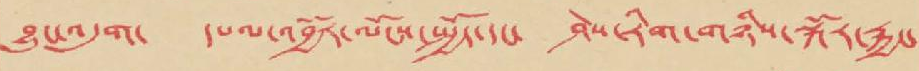བྱུང་འདུག་ དཔལ་འབྱོར་ལོངས་སྤྱོད་དང་ ཤེས་རིག་གཉིས་སྐོར་རྐྱང་
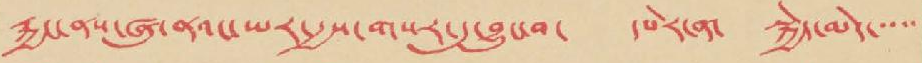རྐྱང་ནས་ཞུ་ནའང་ཡར་རྒྱས་གསར་དུ་བྱུང་བ་ དཔེར་ན་ སྐྱེད་མེ་་་་་
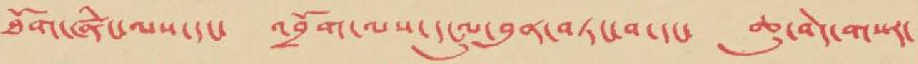ཐོག་ཞིང་ལས་དང་ འབྲོག་ལས་དངུལ་བུན་བཏང་བ་དང་ ཆུ་བེད་གསར་
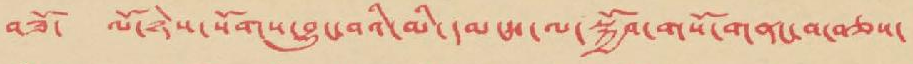བཟོ་ ལོ་ཉེས་སོགས་བྱུང་བའི་མི་དམངས་ལ་སྐྱོབ་གསོ་གནང་བ་བཅས་
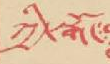ཀྱི་སྒོ་
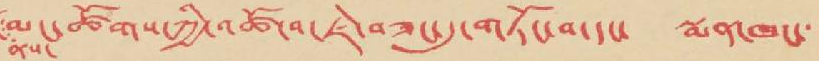མང་ཚོགས་ཀྱི་འཚོ་བ་ཇེ་བཟང་དུ་གཏོང་བ་དང་ སྨན་ཁང་
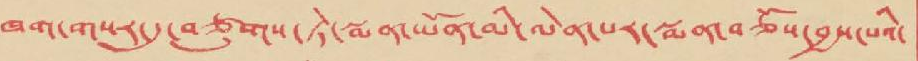ཁག་གསར་དུ་བཙུགས་ཏེ་སྨན་ཡོན་མི་ལེན་པར་སྨན་བཅོས་བྱས་པའི་
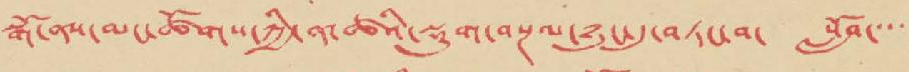སྒོ་ནས་མང་ཚོགས་ཀྱི་ན་ཚའི་སྡུག་བསྔལ་ཉུང་དུ་བཏང་བ་ སློབ་་་་
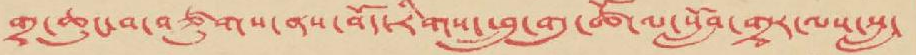གྲྭ་ཆུང་བ་བཙུགས་ནས་བོད་རིགས་ཕྲུ་གུ་ཚོ་ལ་སློབ་གྲྭར་ལས་སླ་
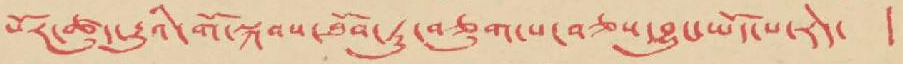པོར་ཚུད་རྒྱུའི་གོ་སྐབས་ཐོབ་ཏུ་བཅུག་པ་བཅས་བྱུང་ཡོད་པ་རེད་ །
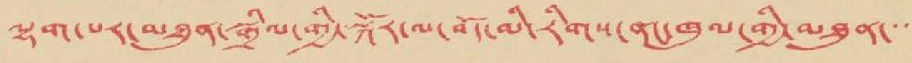ལྷག་པར་མཐུན་སྒྲིལ་གྱི་སྐོར་ལ་བོད་མི་རིགས་ནང་ཁུལ་གྱི་མཐུན་་་
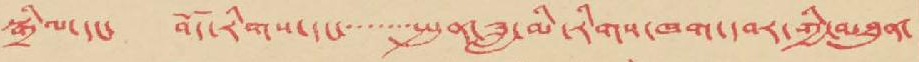སྒྲིལ་དང་ བོད་རིགས་དང་་་་་་་་སྤུན་ཟླ་མི་རིགས་ཁག་དབར་གྱི་མཐུན་
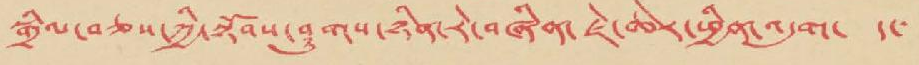སྒྲིལ་བཅས་ཀྱི་སྟོབས་ཤུགས་ཉིན་རེ་བཞིན་ཇེ་ཆེར་ཕྱིན་འདུག་ ད་
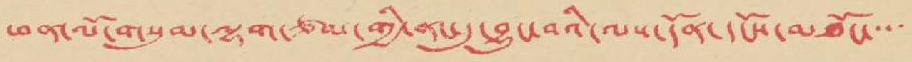ཕན་ལོ་གསུམ་ལྷག་ཙམ་གྱི་ནང་དུ་བྱུང་བའི་ལས་དོན་དངོས་མཐོང་་་་
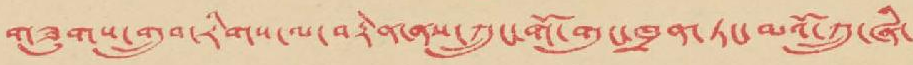གཟུགས་གྲུབ་རིགས་ལ་བརྟེན་ནས་ཀྲུང་གོ་གུང་ཁྲན་ཏང་མའོ་ཀྲུ་ཞི་
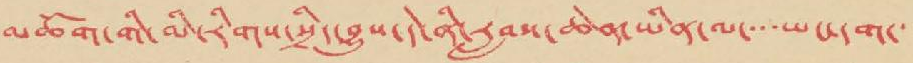མཆོག་གི་མི་རིགས་སྲིད་བྱུས་དེ་ནི་རླབས་ཆེན་ཡིན་ལ་་་་ཡང་དག་་
